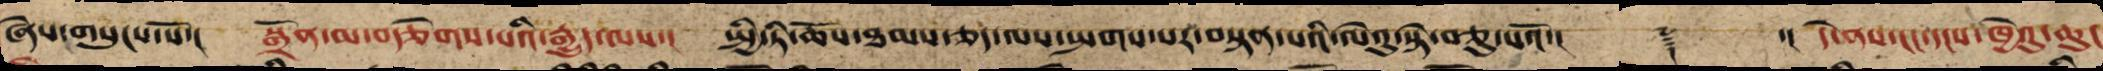ཞེས་གསུངས་སོ་། སྒྲོན་མ་བརྩེགས་པའི་རྒྱུད་ལས་། སྤྱི་ཏི་ཆོས་ཐམས་ཅད་ལས་སྤགས་པར་བསྟན་པའི་ལེའུ་སྟེ་བཅུ་པའོ་།། ༈ ་།། དེ་ནས་ངང་དངས་ཁྱེའུ་ཆུང
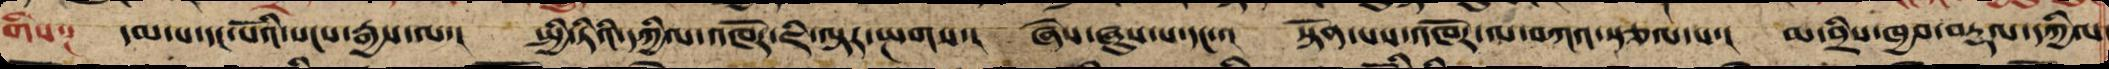གིས༑ དམ་པ་དང་པོའི་སངས་རྒྱས་ལ་། སྤྱི་ཏིའི་དཀྱིལ་འཁོར་ཇི་ལྟར་སྤགས་། ཞེས་ཞུས་པ་དང་་། སྟོན་པས་འཁོར་ལ་བཀའ་སྩལ་པ་། མ་བྲིས་ཁྱབ་བརྡལ་དཀྱིལ
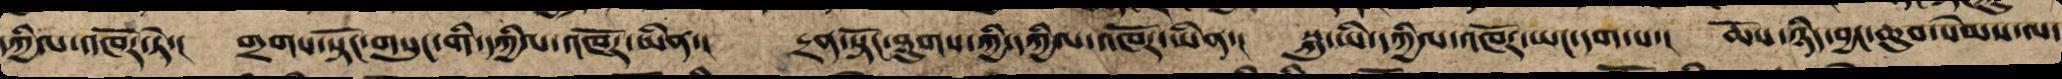དཀྱིལ་འཁོར་ཏེ་། གྲག་སྟོང་གསུང་གི་དཀྱིལ་འཁོར་ཡིན་། དྲན་སྟོང་ཐུགས་ཀྱི་དཀྱིལ་འཁོར་ཡིན་། སྐུ་ཡི་དཀྱིལ་འཁོར་ཡང་དག་པ་། ཆོས་ཉིད་བྱང་ཆུབ་སེམས་ལ་
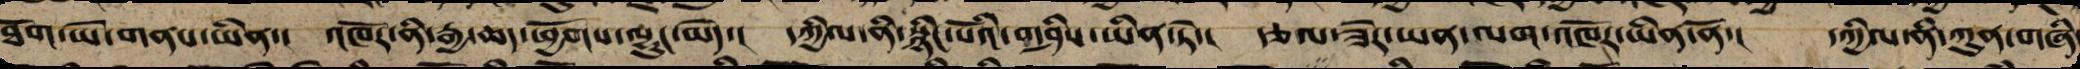ཐོག་ཡེ་གནས་ཡིན་། འཁོར་ནི་རྒྱ་ཆད་ཕྱོགས་ལྷུང་མེད་། དཀྱིལ་ནི་སྙིང་པོའི་གཤིས་ཡིན་ཏེ་། རྩལ་ཟེར་ཡན་ལག་འཁོར་ཡིན་ནོ་། དཀྱིལ་ནི་ཀུན་གཞི་
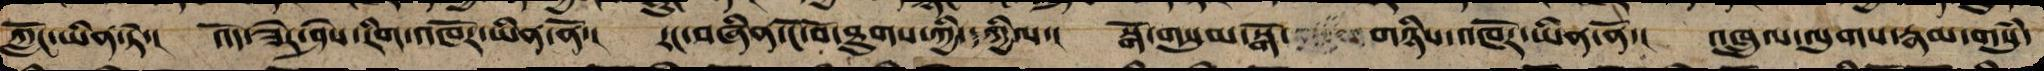ཀློང་ཡིན་ཏེ་། འོད་ཟེར་ཤེས་རིག་འཁོར་ཡིན་ནོ་། རང་བཞིན་ངོ་བོ་ཐུགས་ཀྱི་དཀྱིལ་། སྒོ་གསུམ་སྒོ་གཉིས་འཁོར་ཡིན་ནོ་། འཁྲུལ་ལུགས་རྣམ་གསུཾ་
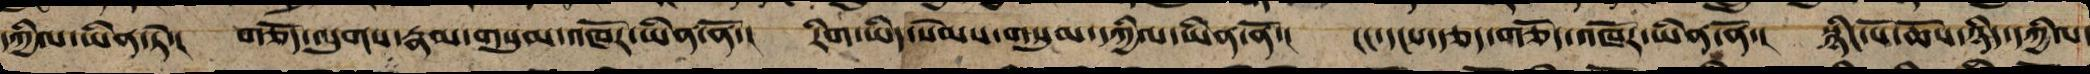དཀྱིལ་ཡིན་ཏེ་། གཅོད་ལུགས་རྣམ་གསུམ་འཁོར་ཡིན་ནོ་། རིག་ཡིད་སེམས་གསུམ་དཀྱིལ་ཡིན་ཏེ་། ངང་དངས་རྩད་གཅོད་འཁོར་ཡིན་ནོ་། སྙིང་པོ་ཆོས་ཉིད་དཀྱིལ་
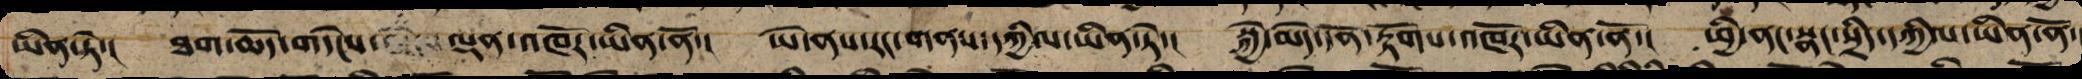ཡིན་ཏེ་། ཐག་ཆོད་གདེངས་ལྡན་འཁོར་ཡིན་ནོ་། ཡེ་ནས་རང་གནས་དཀྱིལ་ཡིན་ཏེ་། སྐྱེ་མེད་དོན་རྟོགས་འཁོར་ཡིན་ནོ་། ཕྱི་ནང་སྣང་སྲིད་དཀྱིལ་ཡིན་ཏེ་
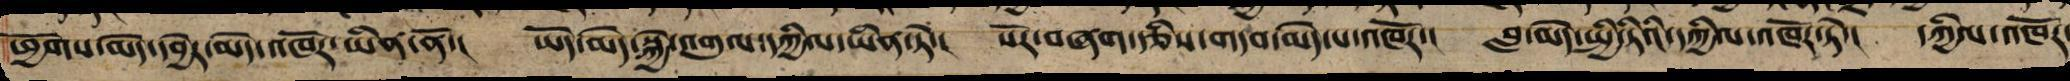ཕྱོགས་མེད་དབྱེར་མེད་འཁོར་ཡིན་ནོ་། ཡོད་མེད་སྐྱེ་འགུལ་དཀྱིལ་ཡིན་ཏེ་། སོར་བཞག་རྩིས་གདབ་མེད་པ་འཁོར་། བླ་མེད་སྤྱི་ཏིའི་དཀྱིལ་འཁོར་ཏེ་། དཀྱིལ་འཁོར་
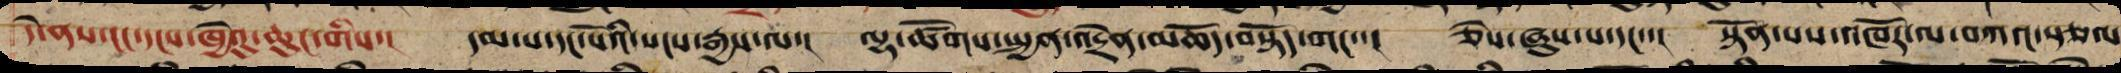དེ་ནས་ངང་དངས་ཁྱེའུ་ཆུང་གིས་། དམ་པ་དང་པོའི་སངས་རྒྱས་ལ་། ལྷ་ཚོགས་སྤྱན་འདྲེན་མཆོད་བསྟོད་གང་་། ཅེས་ཞུས་པ་དང་་། སྟོན་པས་འཁོར་ལ་བཀའ་སྩལ
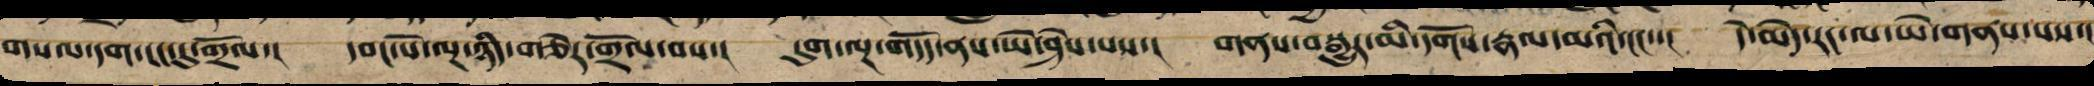གསལ་དག་ངང་དུ་གྲོལ་། དབང་པོ་ལྔ་ཉིད་གཅེར་གྲོལ་བས་། དུག་ལྔ་གདོད་ནས་ཡེ་ཤེས་པས་། གནས་བསྒྱུར་མི་དགོས་རྣལ་མའི་ངང་་། དེ་མེད་རང་ལ་ཡེ་གནས་པས་།
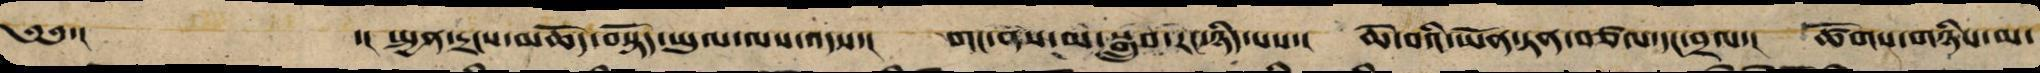༄༅་།     ་། སྤྱན་དྲངས་མཆོད་བསྟོད་ཡུལ་ལས་འདས་། གང་ནས་མ་བསྒྲུབས་རང་ཉིད་པས་། ཆེ་བའི་ཡོན་ཏན་བཙལ་དང་བྲལ་། ཚོགས་གཉིས་མ་
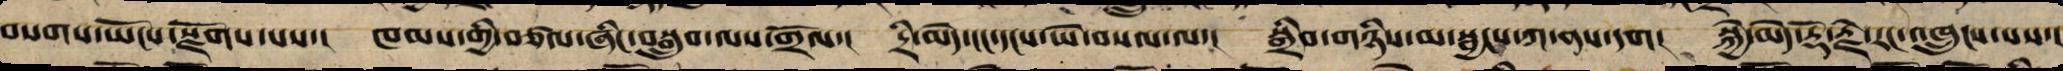བསགས་ཡོངས་སྫོགས་པས་། ཁམས་ཀྱིས་བཙལ་ཞིང་བསྒྲུབ་ལས་གྲོལ་། དྲི་མེད་ངང་དངས་ཡེ་གསལ་ལ་། སྒྲིབ་གཉིས་མ་སྦྱངས་ཀ་ནས་དག། སྐྱེ་མེད་རྡོ་རྗེ་རང་འཁྲུངས་པས་།
